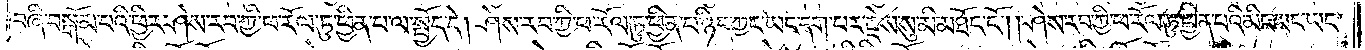བཞི་བསྒོམ་པའི་ཕྱིར་ཤེས་རབ་ཀྱི་ཕ་རོལ་ཏུ་ཕྱིན་པ་ལ་སྤྱོད་དེ། ཤེས་རབ་ཀྱི་ཕ་རོལ་ཏུ་ཕྱིན་པ་ཉིད་ཀྱང་ཡང་དག་པར་རྗེས་སུ་མི་མཐོང་ངོ༌། །ཤེས་རབ་ཀྱི་ཕ་རོལ་ཏུ་ཕྱིན་པའི་མིང་ཡང་ཡང་
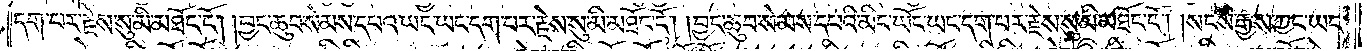དག་པར་རྗེས་སུ་མི་མཐོང་ངོ༌། །བྱང་ཆུབ་སེམས་དཔའ་ཡང་ཡང་དག་པར་རྗེས་སུ་མི་མཐོང་ངོ༌། །བྱང་ཆུབ་སེམས་དཔའི་མིང་ཡོང་ཡང་དག་པར་རྗེས་སུ་མི་མཐོང་ངོ༌། །སངས་རྒྱས་ཀྱང་ཡང་
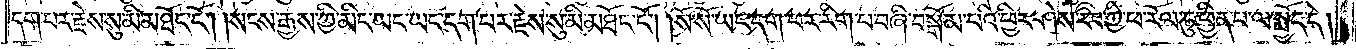དག་པར་རྗེས་སུ་མི་མཐོང་ངོ༌། །སངས་རྒྱས་ཀྱི་མིང་ཡང་ཡང་དག་པར་རྗེས་སུ་མི་མཐོང་ངོ༌། །སོ་སོ་ཡང་དག་པར་རིག་པ་བཞི་བསྒོམ་པའི་ཕྱིར་ཤེས་རབ་ཀྱི་ཕ་རོལ་ཏུ་ཕྱིན་པ་ལ་སྤྱོད་དེ།
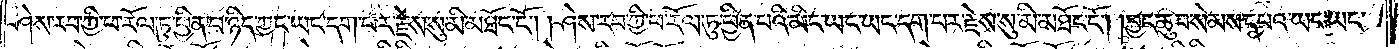ཤེས་རབ་ཀྱི་ཕ་རོལ་ཏུ་ཕྱིན་པ་ཉིད་ཀྱང་ཡང་དག་པར་རྗེས་སུ་མི་མཐོང་ངོ༌། །ཤེས་རབ་ཀྱི་ཕ་རོལ་ཏུ་ཕྱིན་པའི་མིང་ཡང་ཡང་དག་པར་རྗེས་སུ་མི་མཐོང་ངོ༌། །བྱང་ཆུབ་སེམས་དཔའ་ཡང་ཡང་
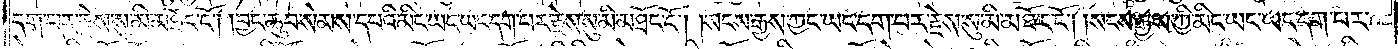དག་པར་རྗེས་སུ་མི་མཐོང་ངོ༌། །བྱང་ཆུབ་སེམས་དཔའི་མིང་ཡང་ཡང་དག་པར་རྗེས་སུ་མི་མཐོང་ངོ༌། །སངས་རྒྱས་ཀྱང་ཡང་དག་པར་རྗེས་སུ་མི་མཐོང་ངོ༌། །སངས་རྒྱས་ཀྱི་མིང་ཡང་ཡང་དག་པར་
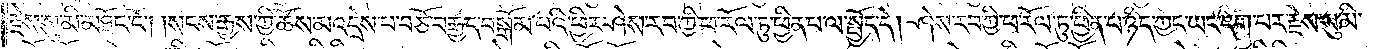རྗེས་སུ་མི་མཐོང་ངོ༌། །སངས་རྒྱས་ཀྱི་ཆོས་མ་འདྲེས་པ་བཅོ་བརྒྱད་བསྒོམ་པའི་ཕྱིར་ཤེས་རབ་ཀྱི་ཕ་རོལ་ཏུ་ཕྱིན་པ་ལ་སྤྱོད་དེ། ཤེས་རབ་ཀྱི་ཕ་རོལ་ཏུ་ཕྱིན་པ་ཉིད་ཀྱང་ཡང་དག་པར་རྗེས་སུ་མི་
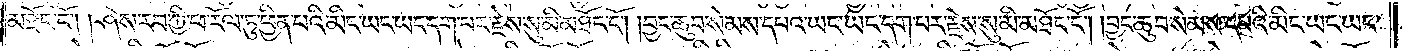མཐོང་ངོ༌། །ཤེས་རབ་ཀྱི་ཕ་རོལ་ཏུ་ཕྱིན་པའི་མིང་ཡང་ཡང་དག་པར་རྗེས་སུ་མི་མཐོང་ངོ༌། །བྱང་ཆུབ་སེམས་དཔའ་ཡང་ཡང་དག་པར་རྗེས་སུ་མི་མཐོང་ངོ༌། །བྱང་ཆུབ་སེམས་དཔའི་མིང་ཡང་ཡང་
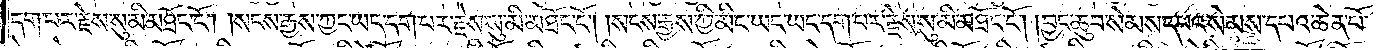དག་པར་རྗེས་སུ་མི་མཐོང་ངོ༌། །སངས་རྒྱས་ཀྱང་ཡང་དག་པར་རྗེས་སུ་མི་མཐོང་ངོ༌། །སངས་རྒྱས་ཀྱི་མིང་ཡང་ཡང་དག་པར་རྗེས་སུ་མི་མཐོང་ངོ༌། །བྱང་ཆུབ་སེམས་དཔའ་སེམས་དཔའ་ཆེན་པོ་
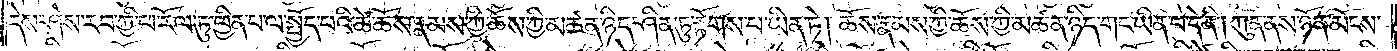དེས་ཤེས་རབ་ཀྱི་ཕ་རོལ་ཏུ་ཕྱིན་པ་ལ་སྤྱོད་པའི་ཚེ་ཆོས་རྣམས་ཀྱི་ཆོས་ཀྱི་མཚན་ཉིད་ཤིན་ཏུ་རྟོགས་པ་ཡིན་ཏེ། ཆོས་རྣམས་ཀྱི་ཆོས་ཀྱི་མཚན་ཉིད་གང་ཡིན་པ་དེ་ནི། ཀུན་ནས་ཉོན་མོངས་
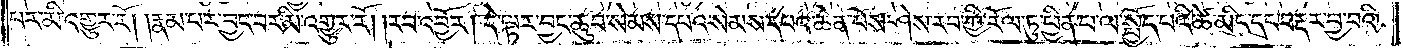པར་མི་འགྱུར་རོ། །རྣམ་པར་བྱང་བར་མི་འགྱུར་རོ། །རབ་འབྱོར། དེ་ལྟར་བྱང་ཆུབ་སེམས་དཔའ་སེམས་དཔའ་ཆེན་པོས་ཤེས་རབ་ཀྱི་ཕ་རོལ་ཏུ་ཕྱིན་པ་ལ་སྤྱོད་པའི་ཚེ་མིང་དང་བརྡར་བྱ་བའི་
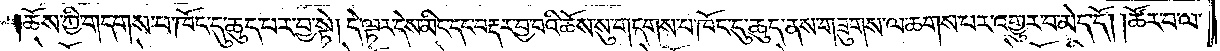ཆོས་ཀྱི་གདགས་པ་ཁོང་དུ་ཆུད་པར་བྱ་སྟེ། དེ་ལྟར་དེས་མིང་དང་བརྡར་བྱ་བའི་ཆོས་སུ་གདགས་པ་ཁོང་དུ་ཆུད་ནས་གཟུགས་ལ་ཆགས་པར་འགྱུར་བ་མེད་དོ། །ཚོར་བ་ལ་
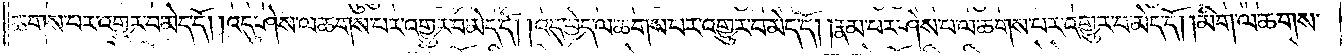ཆགས་པར་འགྱུར་བ་མེད་དོ། །འདུ་ཤེས་ལ་ཆགས་པར་འགྱུར་བ་མེད་དོ། །འདུ་བྱེད་ལ་ཆགས་པར་འགྱུར་བ་མེད་དོ། །རྣམ་པར་ཤེས་པ་ལ་ཆགས་པར་འགྱུར་བ་མེད་དོ། །མིག་ལ་ཆགས་
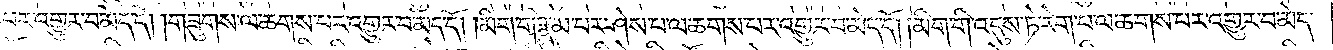པར་འགྱུར་བ་མེད་དོ། །གཟུགས་ལ་ཆགས་པར་འགྱུར་བ་མེད་དོ། །མིག་གི་རྣམ་པར་ཤེས་པ་ལ་ཆགས་པར་འགྱུར་བ་མེད་དོ། །མིག་གི་འདུས་ཏེ་རེག་པ་ལ་ཆགས་པར་འགྱུར་བ་མེད་
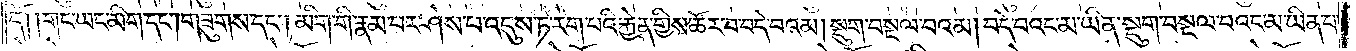དོ། །གང་ཡང་མིག་དང༌། གཟུགས་དང༌། མིག་གི་རྣམ་པར་ཤེས་པ་འདུས་ཏེ་རེག་པའི་རྐྱེན་གྱིས་ཚོར་བ་བདེ་བའམ། སྡུག་བསྔལ་བའམ། བདེ་བའང་མ་ཡིན་སྡུག་བསྔལ་བའང་མ་ཡིན་པ་
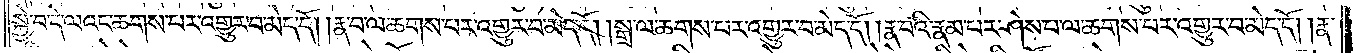སྐྱེ་བ་དེ་ལའང་ཆགས་པར་འགྱུར་བ་མེད་དོ། །རྣ་བ་ལ་ཆགས་པར་འགྱུར་བ་མེད་དོ། །སྒྲ་ལ་ཆགས་པར་འགྱུར་བ་མེད་དོ། །རྣ་བའི་རྣམ་པར་ཤེས་པ་ལ་ཆགས་པར་འགྱུར་བ་མེད་དོ། །རྣ་
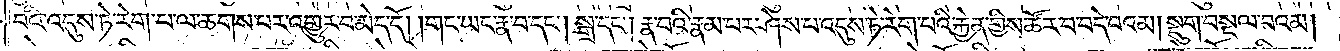བའི་འདུས་ཏེ་རེག་པ་ལ་ཆགས་པར་འགྱུར་བ་མེད་དོ། །གང་ཡང་རྣ་བ་དང༌། སྒྲ་དང༌། རྣ་བའི་རྣམ་པར་ཤེས་པ་འདུས་ཏེ་རེག་པའི་རྐྱེན་གྱིས་ཚོར་བ་བདེ་བའམ། སྡུག་བསྔལ་བའམ།
